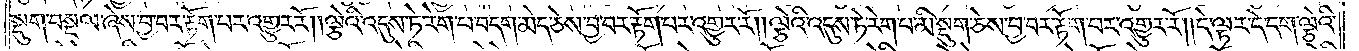སྡུག་བསྔལ་ཞེས་བྱ་བར་རྟོག་པར་འགྱུར་རོ། །ལྕེའི་འདུས་ཏེ་རེག་པ་བདག་མེད་ཅེས་བྱ་བར་རྟོག་པར་འགྱུར་རོ། །ལྕེའི་འདུས་ཏེ་རེག་པ་མི་སྡུག་ཅེས་བྱ་བར་རྟོག་པར་འགྱུར་རོ། །དེ་ལྟར་དེ་དག་ལྕེའི་
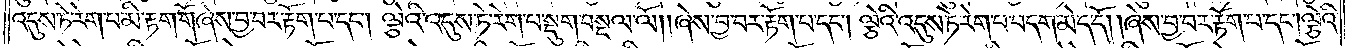འདུས་ཏེ་རེག་པ་མི་རྟག་གོ་ཞེས་བྱ་བར་རྟོག་པ་དང༌། ལྕེའི་འདུས་ཏེ་རེག་པ་སྡུག་བསྔལ་ལོ། །ཞེས་བྱ་བར་རྟོག་པ་དང༌། ལྕེའི་འདུས་ཏེ་རེག་པ་བདག་མེད་དོ། །ཞེས་བྱ་བར་རྟོག་པ་དང༌། ལྕེའི་
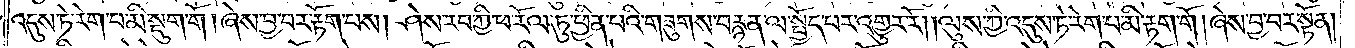འདུས་ཏེ་རེག་པ་མི་སྡུག་གོ། ཞེས་བྱ་བར་རྟོག་པས། ཤེས་རབ་ཀྱི་ཕ་རོལ་ཏུ་ཕྱིན་པའི་གཟུགས་བརྙན་ལ་སྤྱོད་པར་འགྱུར་རོ། །ལུས་ཀྱི་འདུས་ཏེ་རེག་པ་མི་རྟག་གོ། ཞེས་བྱ་བར་སྟོན།
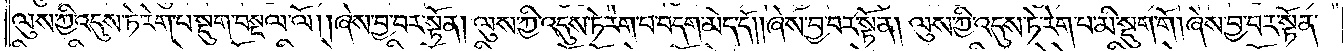ལུས་ཀྱི་འདུས་ཏེ་རེག་པ་སྡུག་བསྔལ་ལོ། །ཞེས་བྱ་བར་སྟོན། ལུས་ཀྱི་འདུས་ཏེ་རེག་པ་བདག་མེད་དོ། །ཞེས་བྱ་བར་སྟོན། ལུས་ཀྱི་འདུས་ཏེ་རེག་པ་མི་སྡུག་གོ། ཞེས་བྱ་བར་སྟོན་
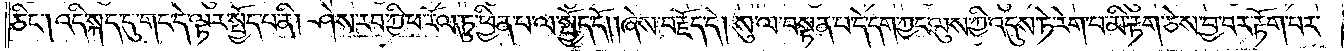ཅིང༌། འདི་སྐད་དུ་གང་དེ་ལྟར་སྤྱོད་པ་ནི། ཤེས་རབ་ཀྱི་ཕ་རོལ་ཏུ་ཕྱིན་པ་ལ་སྤྱོད་དོ། །ཞེས་བརྗོད་དེ། སུ་ལ་བསྟན་པ་དེ་དག་ཀྱང་ལུས་ཀྱི་འདུས་ཏེ་རེག་པ་མི་རྟག་ཅེས་བྱ་བར་རྟོག་པར་
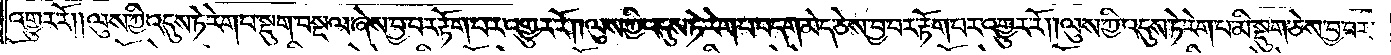འགྱུར་རོ། །ལུས་ཀྱི་འདུས་ཏེ་རེག་པ་སྡུག་བསྔལ་ཞེས་བྱ་བར་རྟོག་པར་འགྱུར་རོ། །ལུས་ཀྱི་འདུས་ཏེ་རེག་པ་བདག་མེད་ཅེས་བྱ་བར་རྟོག་པར་འགྱུར་རོ། །ལུས་ཀྱི་འདུས་ཏེ་རེག་པ་མི་སྡུག་ཅེས་བྱ་བར་
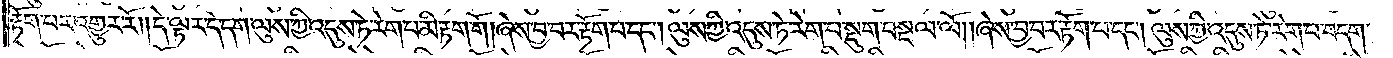རྟོག་པར་འགྱུར་རོ། །དེ་ལྟར་དེ་དག་ལུས་ཀྱི་འདུས་ཏེ་རེག་པ་མི་རྟག་གོ། ཞེས་བྱ་བར་རྟོག་པ་དང༌། ལུས་ཀྱི་འདུས་ཏེ་རེག་པ་སྡུག་བསྔལ་ལོ། །ཞེས་བྱ་བར་རྟོག་པ་དང༌། ལུས་ཀྱི་འདུས་ཏེ་རེག་པ་བདག་
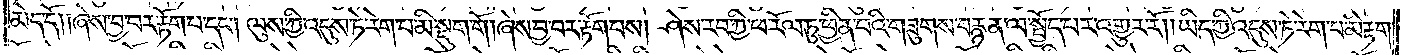མེད་དོ། །ཞེས་བྱ་བར་རྟོག་པ་དང༌། ལུས་ཀྱི་འདུས་ཏེ་རེག་པ་མི་སྡུག་གོ། ཞེས་བྱ་བར་རྟོག་པས། ཤེས་རབ་ཀྱི་ཕ་རོལ་ཏུ་ཕྱིན་པའི་གཟུགས་བརྙན་ལ་སྤྱོད་པར་འགྱུར་རོ། །ཡིད་ཀྱི་འདུས་ཏེ་རེག་པ་མི་རྟོག་
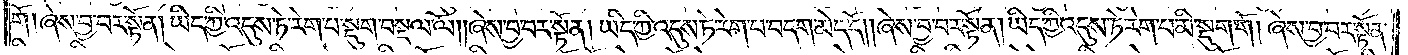གོ། ཞེས་བྱ་བར་སྟོན། ཡིད་ཀྱི་འདུས་ཏེ་རེག་པ་སྡུག་བསྔལ་ལོ། །ཞེས་བྱ་བར་སྟོན། ཡིད་ཀྱི་འདུས་ཏེ་རེག་པ་བདག་མེད་དོ། །ཞེས་བྱ་བར་སྟོན། ཡིད་ཀྱི་འདུས་ཏེ་རེག་པ་མི་སྡུག་གོ། ཞེས་བྱ་བར་སྟོན་
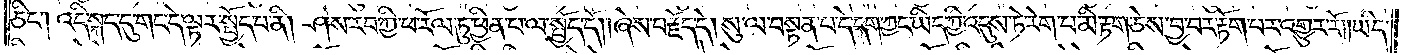ཅིང༌། འདི་སྐད་དུ་གང་དེ་ལྟར་སྤྱོད་པ་ནི། ཤེས་རབ་ཀྱི་ཕ་རོལ་ཏུ་ཕྱིན་པ་ལ་སྤྱོད་དོ། །ཞེས་བརྗོད་དེ། སུ་ལ་བསྟན་པ་དེ་དག་ཀྱང་ཡིད་ཀྱི་འདུས་ཏེ་རེག་པ་མི་རྟག་ཅེས་བྱ་བར་རྟོག་པར་འགྱུར་རོ། །ཡིད་
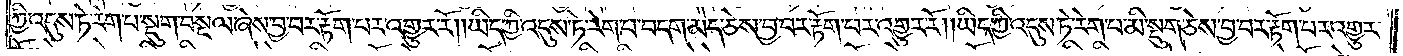ཀྱི་འདུས་ཏེ་རེག་པ་སྡུག་བསྔལ་ཞེས་བྱ་བར་རྟོག་པར་འགྱུར་རོ། །ཡིད་ཀྱི་འདུས་ཏེ་རེག་པ་བདག་མེད་ཅེས་བྱ་བར་རྟོག་པར་འགྱུར་རོ། །ཡིད་ཀྱི་འདུས་ཏེ་རེག་པ་མི་སྡུག་ཅེས་བྱ་བར་རྟོག་པར་འགྱུར་
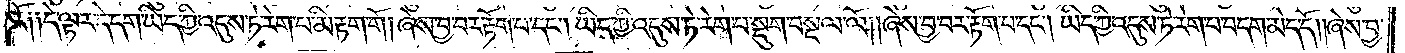རོ༑ ༑དེ་ལྟར་དེ་དག་ཡིད་ཀྱི་འདུས་ཏེ་རེག་པ་མི་རྟག་གོ། ཞེས་བྱ་བར་རྟོག་པ་དང༌། ཡིད་ཀྱི་འདུས་ཏེ་རེག་པ་སྡུག་བསྔལ་ལོ། །ཞེས་བྱ་བར་རྟོག་པ་དང༌། ཡིད་ཀྱི་འདུས་ཏེ་རེག་པ་བདག་མེད་དོ། །ཞེས་བྱ་
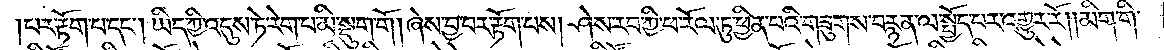པར་རྟོག་པ་དང༌། ཡིད་ཀྱི་འདུས་ཏེ་རེག་པ་མི་སྡུག་གོ། ཞེས་བྱ་བར་རྟོག་པས། ཤེས་རབ་ཀྱི་ཕ་རོལ་ཏུ་ཕྱིན་པའི་གཟུགས་བརྙན་ལ་སྤྱོད་པར་འགྱུར་རོ། །མིག་གི་
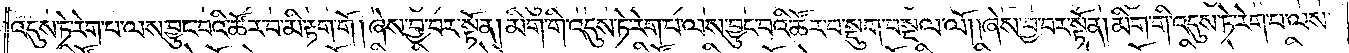འདུས་ཏེ་རེག་པ་ལས་བྱུང་བའི་ཚོར་བ་མི་རྟག་གོ། ཞེས་བྱ་བར་སྟོན། མིག་གི་འདུས་ཏེ་རེག་པ་ལས་བྱུང་བའི་ཚོར་བ་སྡུག་བསྔལ་ལོ། །ཞེས་བྱ་བར་སྟོན། མིག་གི་འདུས་ཏེ་རེག་པ་ལས་
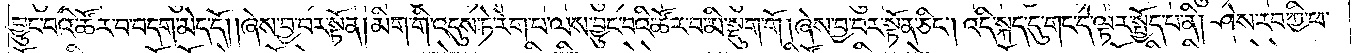བྱུང་བའི་ཚོར་བ་བདག་མེད་དོ། །ཞེས་བྱ་བར་སྟོན། མིག་གི་འདུས་ཏེ་རེག་པ་ལས་བྱུང་བའི་ཚོར་བ་མི་སྡུག་གོ། ཞེས་བྱ་བར་སྟོན་ཅིང༌། འདི་སྐད་དུ་གང་དེ་ལྟར་སྤྱོད་པ་ནི། ཤེས་རབ་ཀྱི་ཕ་
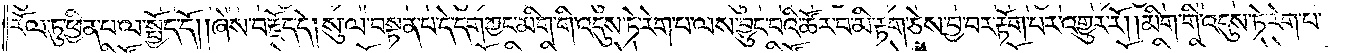རོལ་ཏུ་ཕྱིན་པ་ལ་སྤྱོད་དོ། །ཞེས་བརྗོད་དེ། སུ་ལ་བསྟན་པ་དེ་དག་ཀྱང་མིག་གི་འདུས་ཏེ་རེག་པ་ལས་བྱུང་བའི་ཚོར་བ་མི་རྟག་ཅེས་བྱ་བར་རྟོག་པར་འགྱུར་རོ། །མིག་གི་འདུས་ཏེ་རེག་པ་
